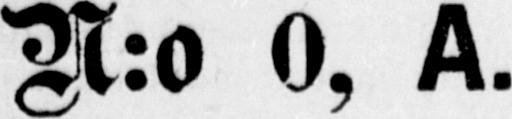N:o 0, A.
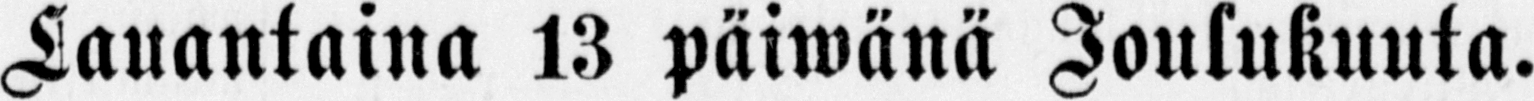Lauantaina 13 päiwänä Joulukuuta.
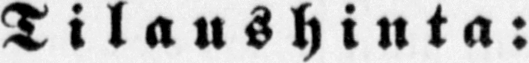Tilaushinta:
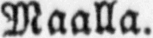Maalla.
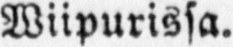Wiipurissa.
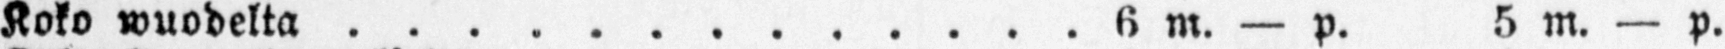Koko wuodelta 6 m. — p. 5 m. — p.
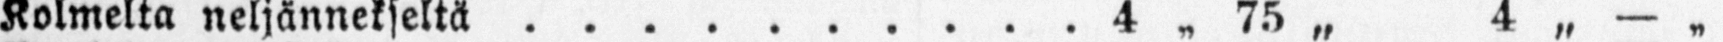Kolmelta neljännekseltä 4 „ 75 „ 4 „ — „
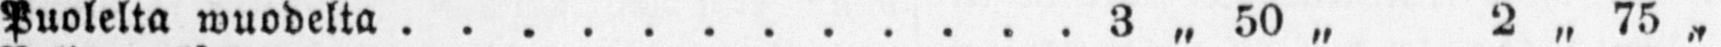Puolelta wuodelta 3 „ 50 „ 2 „ 75 „
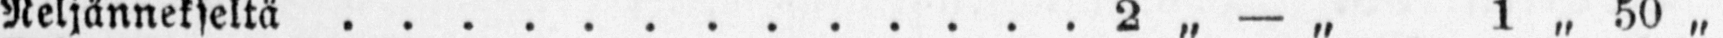Neljännekseltä 2 „ — „ „ 50 „
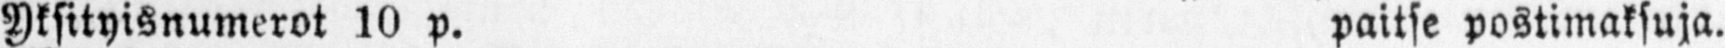Yksityisnumerot 10 p. paitse postimaksuja.
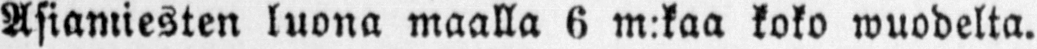Asiamiesten luona maalla 6 m:kaa koko wuodelta.
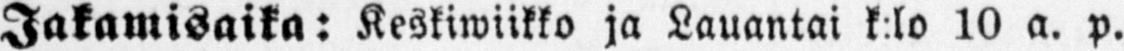Jakamisaika: Keskiwiikko ja Lauantai k:lo 10 a. p.
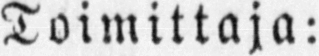Toimittaja:
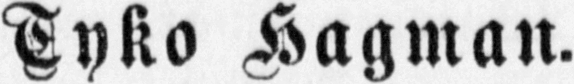Tyko Hagman.
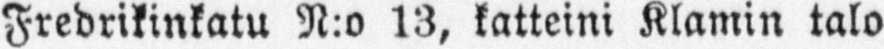Fredrikinkatu N:o 13, katteini Klamin talo.
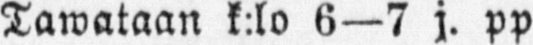Tawataan k:lo 6—7 j. pp.
